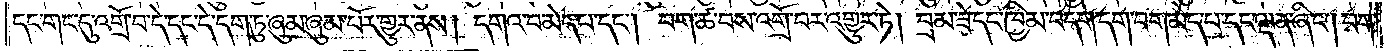དང་གང་དུ་འགྲོ་བ་དེ་དང་དེ་དག་ཏུ་ཞུམ་ཞུམ་པོར་གྱུར་ནས། དགའ་བ་མེད་པ་དང༌། བག་ཚ་བས་འགྲོ་བར་འགྱུར་ཏེ། བྲམ་ཟེ་དང་ཁྱིམ་བདག་དག་བག་མེད་པ་དང་ལྡན་ཞིང༌། བག་
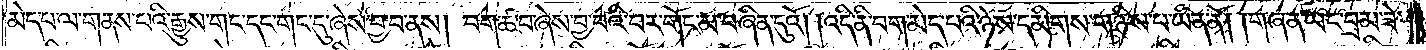མེད་པ་ལ་གནས་པའི་རྒྱུས་གང་དང་གང་དུ་ཞེས་བྱ་བ་ནས། བག་ཚ་བ་ཞེས་བྱ་བའི་བར་གོང་མ་བཞིན་དུའོ། །འདི་ནི་བག་མེད་པའི་ཉེས་དམིགས་གཉིས་པ་ཡིན་ནོ། །གཞན་ཡང་བྲམ་ཟེ་
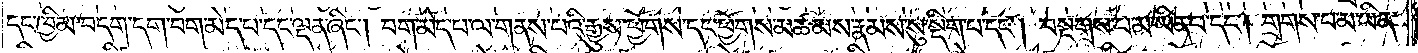དང་ཁྱིམ་བདག་དག་བག་མེད་པ་དང་ལྡན་ཞིང༌། བག་མེད་པ་ལ་གནས་པའི་རྒྱུས་ཕྱོགས་དང་ཕྱོགས་མཚམས་རྣམས་སུ་སྡིག་པ་དང༌། བསྔགས་པ་མ་ཡིན་པ་དང༌། གྲགས་པ་མ་ཡིན་
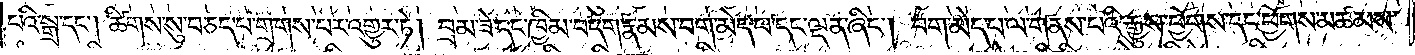པའི་སྒྲ་དང༌། ཚིགས་སུ་བཅད་པ་གྲགས་པར་འགྱུར་ཏེ། བྲམ་ཟེ་དང་ཁྱིམ་བདག་རྣམས་བག་མེད་པ་དང་ལྡན་ཞིང༌། བག་མེད་པ་ལ་གནས་པའི་རྒྱུས་ཕྱོགས་དང་ཕྱོགས་མཚམས་
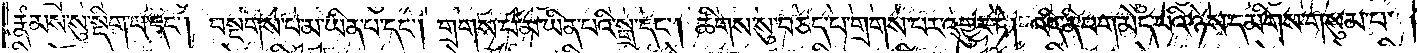རྣམས་སུ་སྡིག་པ་དང༌། བསྔགས་པ་མ་ཡིན་པ་དང༌། གྲགས་པ་མ་ཡིན་པའི་སྒྲ་དང༌། ཚིགས་སུ་བཅད་པ་གྲགས་པར་འགྱུར་ཏེ། འདི་ནི་བག་མེད་པའི་ཉེས་དམིགས་གསུམ་པ་
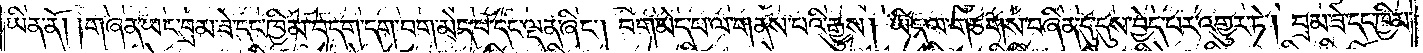ཡིན་ནོ། །གཞན་ཡང་བྲམ་ཟེ་དང་ཁྱིམ་བདག་དག་བག་མེད་པ་དང་ལྡན་ཞིང༌། བག་མེད་པ་ལ་གནས་པའི་རྒྱུས། ཡིད་ལ་གཅགས་བཞིན་དུ་དུས་བྱེད་པར་འགྱུར་ཏེ། བྲམ་ཟེ་དང་ཁྱིམ་
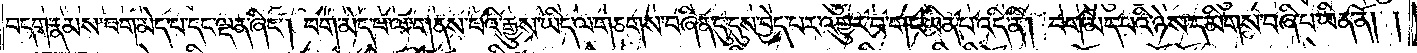བདག་རྣམས་བག་མེད་པ་དང་ལྡན་ཞིང༌། བག་མེད་པ་ལ་གནས་པའི་རྒྱུས་ཡིད་ལ་གཅགས་བཞིན་དུ་དུས་བྱེད་པར་འགྱུར་བ་གང་ཡིན་པ་འདི་ནི། བག་མེད་པའི་ཉེས་དམིགས་བཞི་པ་ཡིན་ནོ། །
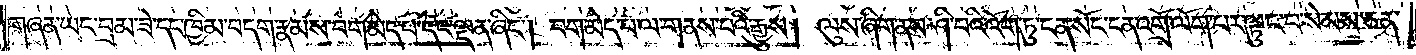གཞན་ཡང་བྲམ་ཟེ་དང་ཁྱིམ་བདག་རྣམས་བག་མེད་པ་དང་ལྡན་ཞིང༌། བག་མེད་པ་ལ་གནས་པའི་རྒྱུས། ལུས་ཞིག་ནས་ཤི་བའི་འོག་ཏུ་ངན་སོང་ངན་འགྲོ་ལོག་པར་ལྟུང་བ་སེམས་ཅན་
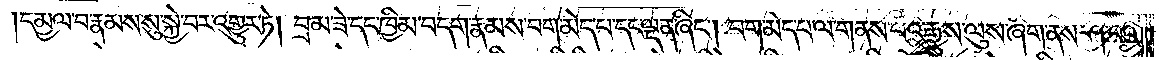དམྱལ་བ་རྣམས་སུ་སྐྱེ་བར་འགྱུར་ཏེ། བྲམ་ཟེ་དང་ཁྱིམ་བདག་རྣམས་བག་མེད་པ་དང་ལྡན་ཞིང༌། བག་མེད་པ་ལ་གནས་པའི་རྒྱུས་ལུས་ཞིག་ནས་ཤི་བའི་
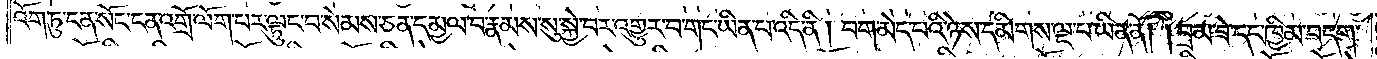འོག་ཏུ་ངན་སོང་ངན་འགྲོ་ལོག་པར་ལྟུང་བ་སེམས་ཅན་དམྱལ་བ་རྣམས་སུ་སྐྱེ་བར་འགྱུར་བ་གང་ཡིན་པ་འདི་ནི། བག་མེད་པའི་ཉེས་དམིགས་ལྔ་པ་ཡིན་ནོ། །བྲམ་ཟེ་དང་ཁྱིམ་བདག་
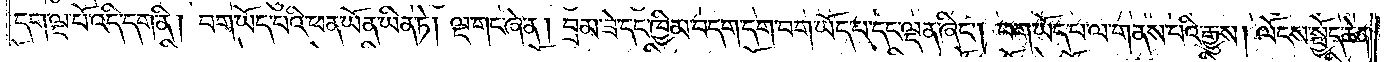དག་ལྔ་པོ་འདི་དག་ནི། བག་ཡོད་པའི་ཕན་ཡོན་ཡིན་ཏེ། ལྔ་གང་ཞེ་ན། བྲམ་ཟེ་དང་ཁྱིམ་བདག་དག་བག་ཡོད་པ་དང་ལྡན་ཞིང༌། བག་ཡོད་པ་ལ་གནས་པའི་རྒྱུས། ལོངས་སྤྱོད་ཆེན་
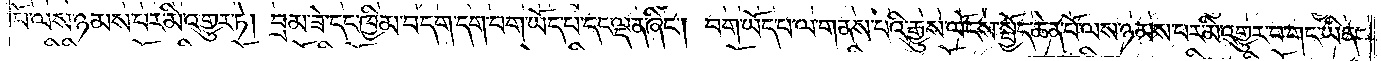པོ་ལས་ཉམས་པར་མི་འགྱུར་ཏེ། བྲམ་ཟེ་དང་ཁྱིམ་བདག་དག་བག་ཡོད་པ་དང་ལྡན་ཞིང༌། བག་ཡོད་པ་ལ་གནས་པའི་རྒྱུས་ལོངས་སྤྱོད་ཆེན་པོ་ལས་ཉམས་པར་མི་འགྱུར་བ་གང་ཡིན་
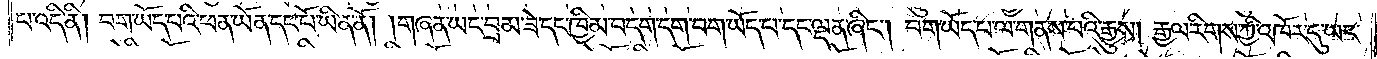པ་འདི་ནི། བག་ཡོད་པའི་ཕན་ཡོན་དང་པོ་ཡིན་ནོ། །གཞན་ཡང་བྲམ་ཟེ་དང་ཁྱིམ་བདག་དག་བག་ཡོད་པ་དང་ལྡན་ཞིང༌། བག་ཡོད་པ་ལ་གནས་པའི་རྒྱུས། རྒྱལ་རིགས་ཀྱི་འཁོར་དུ་ཡང་
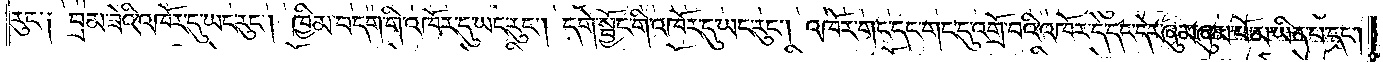རུང༌། བྲམ་ཟེའི་འཁོར་དུ་ཡང་རུང༌། ཁྱིམ་བདག་གི་འཁོར་དུ་ཡང་རུང༌། དགེ་སྦྱོང་གི་འཁོར་དུ་ཡང་རུང༌། འཁོར་གང་དང་གང་དུ་འགྲོ་བའི་འཁོར་དེ་དང་དེར་ཞུམ་ཞུམ་པོ་མ་ཡིན་པ་དང༌།
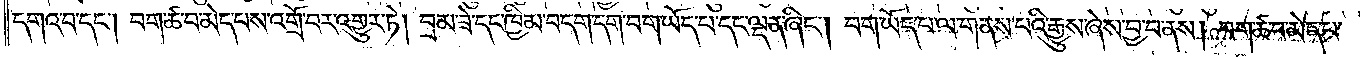དགའ་བ་དང༌། བག་ཚ་བ་མེད་པས་འགྲོ་བར་འགྱུར་ཏེ། བྲམ་ཟེ་དང་ཁྱིམ་བདག་དག་བག་ཡོད་པ་དང་ལྡན་ཞིང༌། བག་ཡོད་པ་ལ་གནས་པའི་རྒྱུས་ཞེས་བྱ་བ་ནས། བག་ཚ་བ་མེད་པ་
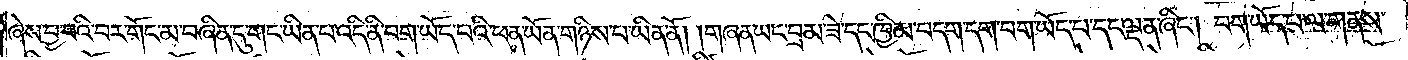ཞེས་བྱ་བའི་བར་གོང་མ་བཞིན་དུ་གང་ཡིན་པ་འདི་ནི་བག་ཡོད་པའི་ཕན་ཡོན་གཉིས་པ་ཡིན་ནོ། །གཞན་ཡང་བྲམ་ཟེ་དང་ཁྱིམ་བདག་དག་བག་ཡོད་པ་དང་ལྡན་ཞིང༌། བག་ཡོད་པ་ལ་གནས་
